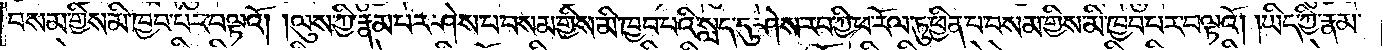བསམ་གྱིས་མི་ཁྱབ་པར་བལྟའོ། །ལུས་ཀྱི་རྣམ་པར་ཤེས་པ་བསམ་གྱིས་མི་ཁྱབ་པའི་སླད་དུ་ཤེས་རབ་ཀྱི་ཕ་རོལ་ཏུ་ཕྱིན་པ་བསམ་གྱིས་མི་ཁྱབ་པར་བལྟའོ། ཡིད་ཀྱི་རྣམ་
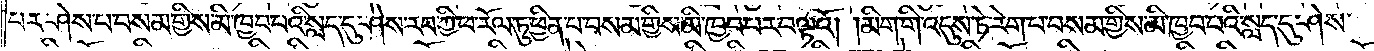པར་ཤེས་པ་བསམ་གྱིས་མི་ཁྱབ་པའི་སླད་དུ་ཤེས་རབ་ཀྱི་ཕ་རོལ་ཏུ་ཕྱིན་པ་བསམ་གྱིས་མི་ཁྱབ་པར་བལྟའོ། །མིག་གི་འདུས་ཏེ་རེག་པ་བསམ་གྱིས་མི་ཁྱབ་པའི་སླད་དུ་ཤེས་
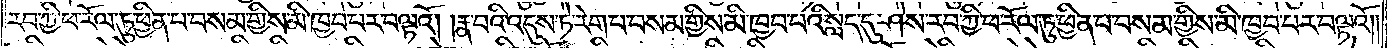རབ་ཀྱི་ཕ་རོལ་ཏུ་ཕྱིན་པ་བསམ་གྱིས་མི་ཁྱབ་པར་བལྟའོ། །རྣ་བའི་འདུས་ཏེ་རེག་པ་བསམ་གྱིས་མི་ཁྱབ་པའི་སླད་དུ་ཤེས་རབ་ཀྱི་ཕ་རོལ་ཏུ་ཕྱིན་པ་བསམ་གྱིས་མི་ཁྱབ་པར་བལྟའོ། །
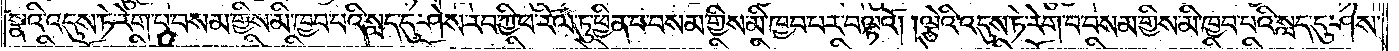སྣའི་འདུས་ཏེ་རེག་པ་བསམ་གྱིས་མི་ཁྱབ་པའི་སླད་དུ་ཤེས་རབ་ཀྱི་ཕ་རོལ་ཏུ་ཕྱིན་པ་བསམ་གྱིས་མི་ཁྱབ་པར་བལྟའོ། །ལྕེའི་འདུས་ཏེ་རེག་པ་བསམ་གྱིས་མི་ཁྱབ་པའི་སླད་དུ་ཤེས་
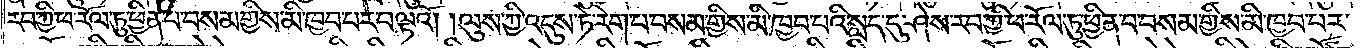རབ་ཀྱི་ཕ་རོལ་ཏུ་ཕྱིན་པ་བསམ་གྱིས་མི་ཁྱབ་པར་བལྟའོ། །ལུས་ཀྱི་འདུས་ཏེ་རེག་པ་བསམ་གྱིས་མི་ཁྱབ་པའི་སླད་དུ་ཤེས་རབ་ཀྱི་ཕ་རོལ་ཏུ་ཕྱིན་པ་བསམ་གྱིས་མི་ཁྱབ་པར་
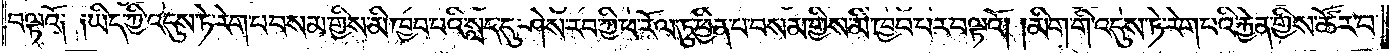བལྟའོ༑ ༑ཡིད་ཀྱི་འདུས་ཏེ་རེག་པ་བསམ་གྱིས་མི་ཁྱབ་པའི་སླད་དུ་ཤེས་རབ་ཀྱི་ཕ་རོལ་ཏུ་ཕྱིན་པ་བསམ་གྱིས་མི་ཁྱབ་པར་བལྟའོ། །མིག་གི་འདུས་ཏེ་རེག་པའི་རྐྱེན་གྱིས་ཚོར་བ་
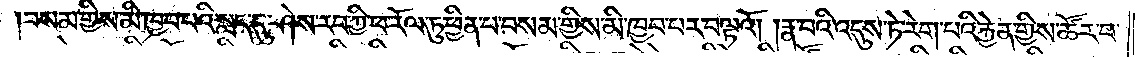བསམ་གྱིས་མི་ཁྱབ་པའི་སླད་དུ་ཤེས་རབ་ཀྱི་ཕ་རོལ་ཏུ་ཕྱིན་པ་བསམ་གྱིས་མི་ཁྱབ་པར་བལྟའོ། །རྣ་བའི་འདུས་ཏེ་རེག་པའི་རྐྱེན་གྱིས་ཚོར་བ་
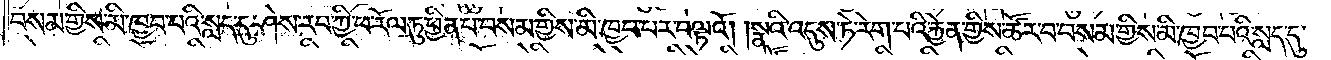བསམ་གྱིས་མི་ཁྱབ་པའི་སླད་དུ་ཤེས་རབ་ཀྱི་ཕ་རོལ་ཏུ་ཕྱིན་པ་བསམ་གྱིས་མི་ཁྱབ་པར་བལྟའོ། །སྣའི་འདུས་ཏེ་རེག་པའི་རྐྱེན་གྱིས་ཚོར་བ་བསམ་གྱིས་མི་ཁྱབ་པའི་སླད་དུ་
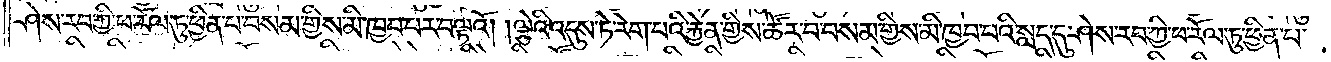ཤེས་རབ་ཀྱི་ཕ་རོལ་ཏུ་ཕྱིན་པ་བསམ་གྱིས་མི་ཁྱབ་པར་བལྟའོ། །ལྕེའི་འདུས་ཏེ་རེག་པའི་རྐྱེན་གྱིས་ཚོར་བ་བསམ་གྱིས་མི་ཁྱབ་པའི་སླད་དུ་ཤེས་རབ་ཀྱི་ཕ་རོལ་ཏུ་ཕྱིན་པ་
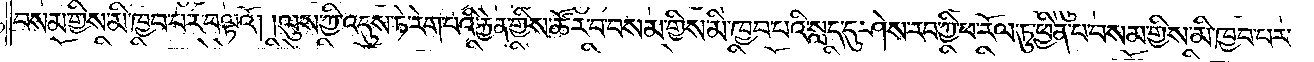བསམ་གྱིས་མི་ཁྱབ་པར་བལྟའོ། །ལུས་ཀྱི་འདུས་ཏེ་རེག་པའི་རྐྱེན་གྱིས་ཚོར་བ་བསམ་གྱིས་མི་ཁྱབ་པའི་སླད་དུ་ཤེས་རབ་ཀྱི་ཕ་རོལ་ཏུ་ཕྱིན་པ་བསམ་གྱིས་མི་ཁྱབ་པར་
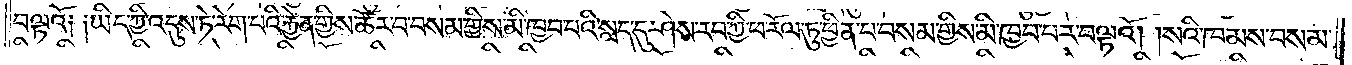བལྟའོ༑ ༑ཡིད་ཀྱི་འདུས་ཏེ་རེག་པའི་རྐྱེན་གྱིས་ཚོར་བ་བསམ་གྱིས་མི་ཁྱབ་པའི་སླད་དུ་ཤེས་རབ་ཀྱི་ཕ་རོལ་ཏུ་ཕྱིན་པ་བསམ་གྱིས་མི་ཁྱབ་པར་བལྟའོ། །སའི་ཁམས་བསམ་
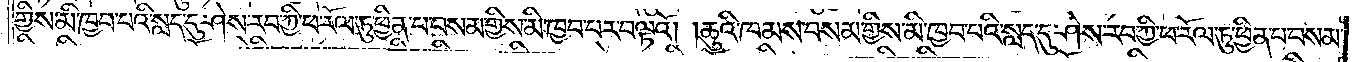གྱིས་མི་ཁྱབ་པའི་སླད་དུ་ཤེས་རབ་ཀྱི་ཕ་རོལ་ཏུ་ཕྱིན་པ་བསམ་གྱིས་མི་ཁྱབ་པར་བལྟའོ། །ཆུའི་ཁམས་བསམ་གྱིས་མི་ཁྱབ་པའི་སླད་དུ་ཤེས་རབ་ཀྱི་ཕ་རོལ་ཏུ་ཕྱིན་པ་བསམ་
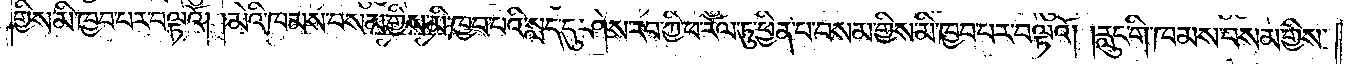གྱིས་མི་ཁྱབ་པར་བལྟའོ། །མེའི་ཁམས་བསམ་གྱིས་མི་ཁྱབ་པའི་སླད་དུ་ཤེས་རབ་ཀྱི་ཕ་རོལ་ཏུ་ཕྱིན་པ་བསམ་གྱིས་མི་ཁྱབ་པར་བལྟའོ། །རླུང་གི་ཁམས་བསམ་གྱིས་
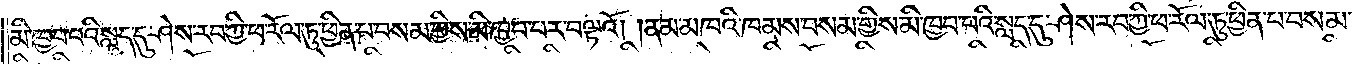མི་ཁྱབ་པའི་སླད་དུ་ཤེས་རབ་ཀྱི་ཕ་རོལ་ཏུ་ཕྱིན་པ་བསམ་གྱིས་མི་ཁྱབ་པར་བལྟའོ། །ནམ་མཁའི་ཁམས་བསམ་གྱིས་མི་ཁྱབ་པའི་སླད་དུ་ཤེས་རབ་ཀྱི་ཕ་རོལ་ཏུ་ཕྱིན་པ་བསམ་
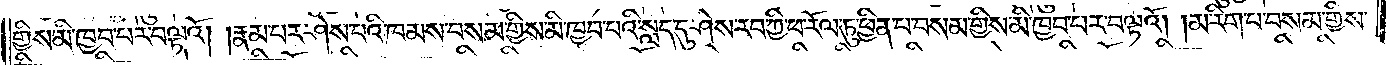གྱིས་མི་ཁྱབ་པར་བལྟའོ། །རྣམ་པར་ཤེས་པའི་ཁམས་བསམ་གྱིས་མི་ཁྱབ་པའི་སླད་དུ་ཤེས་རབ་ཀྱི་ཕ་རོལ་ཏུ་ཕྱིན་པ་བསམ་གྱིས་མི་ཁྱབ་པར་བལྟའོ། །མ་རིག་པ་བསམ་གྱིས་
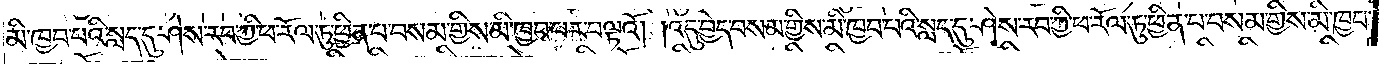མི་ཁྱབ་པའི་སླད་དུ་ཤེས་རབ་ཀྱི་ཕ་རོལ་ཏུ་ཕྱིན་པ་བསམ་གྱིས་མི་ཁྱབ་པར་བལྟའོ། །འདུ་བྱེད་བསམ་གྱིས་མི་ཁྱབ་པའི་སླད་དུ་ཤེས་རབ་ཀྱི་ཕ་རོལ་ཏུ་ཕྱིན་པ་བསམ་གྱིས་མི་ཁྱབ་
